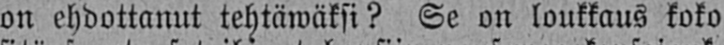on ehdottanut tehtäwäksi? Se on loukkaus koko
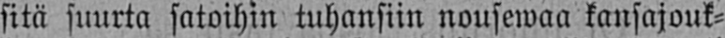sitä suurta satoihin tuhansiin nousewaa kansajouk-
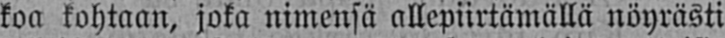koa kohtaan, joka nimensä allepiirtämällä nöyrästi
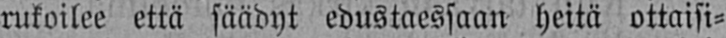rukoilee että säädyt edustaessaan heitä ottaisi-
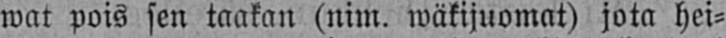wat pois sen taakan (nim. wäkijuomat) jota hei-
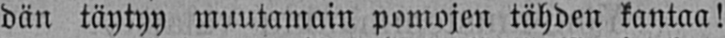dän täytyy muutamain pomojen tähden kantaa!
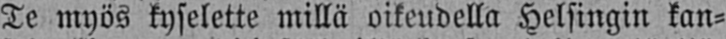Te myös kyselette millä oikeudella Helsingin kan-
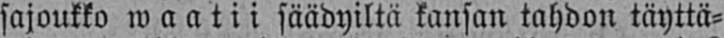sajoukko waatii säädyiltä kansan tahdon täyttä-
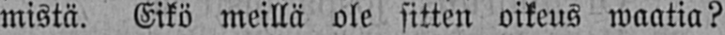mistä. Eikö meillä ole sitten oikeus waatia?
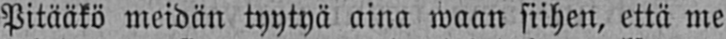Pitääkö meidän tyytyä aina waan siihen, että me
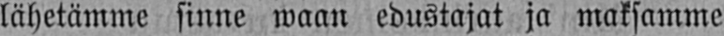lähetämme sinne waan edustajat ja maksamme
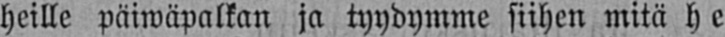heille päiwäpalkan ja tyydymme siihen mitä he
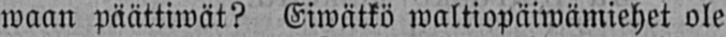waan päättiwät? Eiwätkö waltiopäiwämiehet ole
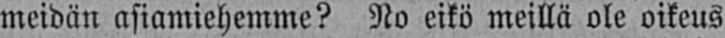meidän asiamiehemme? No eikö meillä ole oikeus
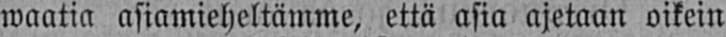waatia asiamieheltämme, että asia ajetaan oikein
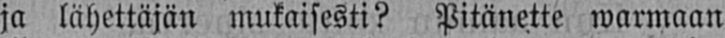ja lähettäjän mukaisesti? Pitänette warmaan
